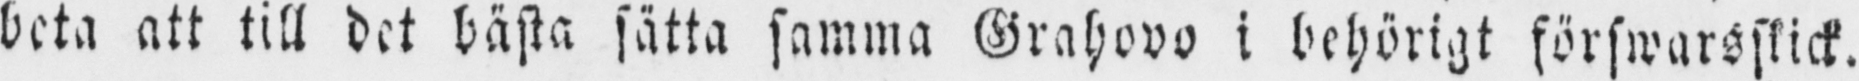beta att till det bästa sätta samma Grahovo i behörigt förswarsskick.
